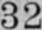32
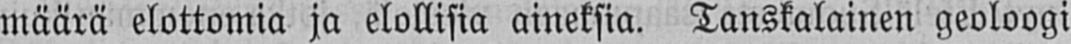määrä elottomia ja elollisia aineksia. Tanskalainen geoloogi
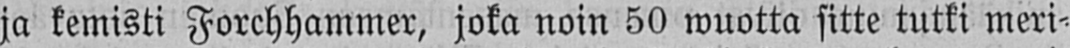ja kemisti Forchhammer, joka noin 50 wuotta sitte tutki meri-
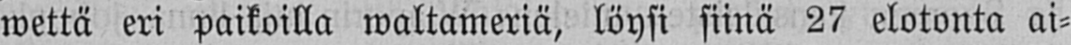wettä eri paikoilla waltameriä, löysi siinä 27 elotonta ai-
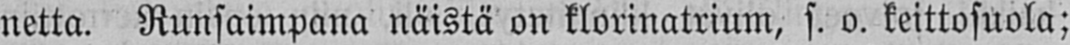netta. Runsaimpana näistä on klorinatrium, s. o. keittosuola;
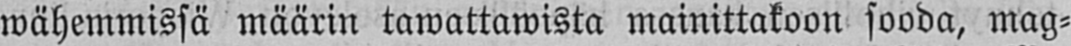wähemmissä määrin tawattawista mainittakoon sooda, mag-
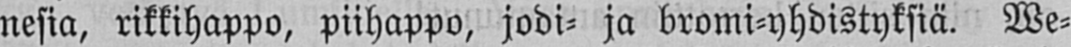nesia, rikkihappo, piihappo, jodi- ja bromi-yhdistyksiä. We-
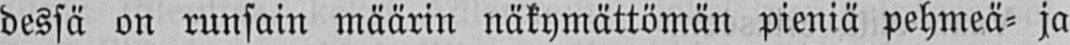dessä on runsain määrin näkymättömän pieniä pehmeä- ja
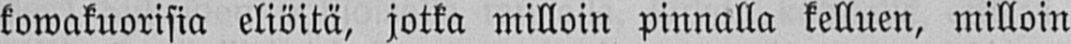kowakuorisia eliöitä, jotka milloin pinnalla kelluen, milloin
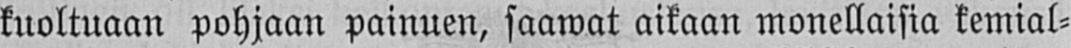kuoltuaan pohjaan painuen, saawat aikaan monellaisia kemial-
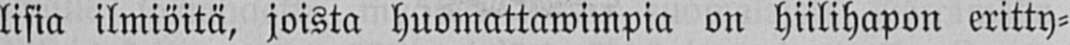lisia ilmiöitä, joista huomattawimpia on hiilihapon eritty-
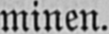minen.
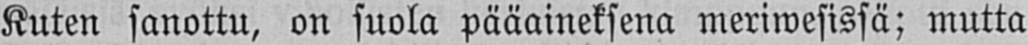Kuten sanottu, on suola pääaineksena meriwesissä; mutta
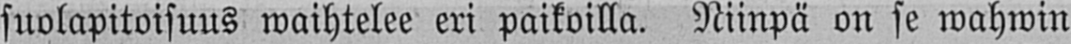suolapitoisuus waihtelee eri paikoilla. Niinpä on se wahwin
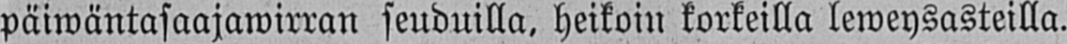päiwäntasaajawirran seuduilla, heikoin korkeilla leweysasteilla.
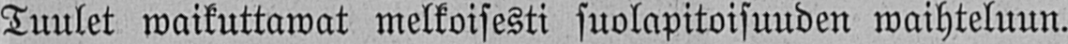Tuulet waikuttawat melkoisesti suolapitoisuuden waihteluun.
